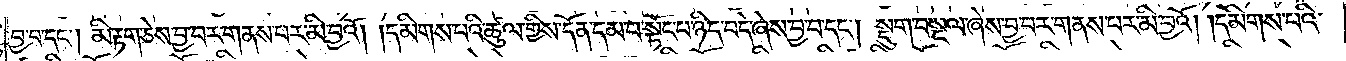བྱ་བ་དང༌། མི་རྟག་ཅེས་བྱ་བར་གནས་པར་མི་བྱའོ། །དམིགས་པའི་ཚུལ་གྱིས་དོན་དམ་པ་སྟོང་པ་ཉིད་བདེ་ཞེས་བྱ་བ་དང༌། སྡུག་བསྔལ་ཞེས་བྱ་བར་གནས་པར་མི་བྱའོ། །དམིགས་པའི་
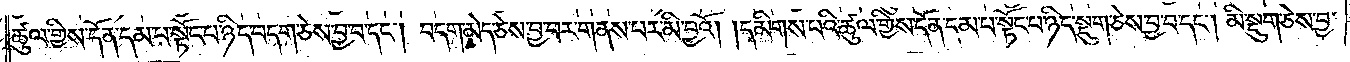ཚུལ་གྱིས་དོན་དམ་པ་སྟོང་པ་ཉིད་བདག་ཅེས་བྱ་བ་དང༌། བདག་མེད་ཅེས་བྱ་བར་གནས་པར་མི་བྱའོ། །དམིགས་པའི་ཚུལ་གྱིས་དོན་དམ་པ་སྟོང་པ་ཉིད་སྡུག་ཅེས་བྱ་བ་དང༌། མི་སྡུག་ཅེས་བྱ་
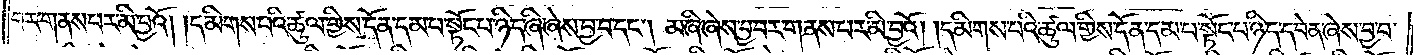བར་གནས་པར་མི་བྱའོ། །དམིགས་པའི་ཚུལ་གྱིས་དོན་དམ་པ་སྟོང་པ་ཉིད་ཞི་ཞེས་བྱ་བ་དང༌། མ་ཞི་ཞེས་བྱ་བར་གནས་པར་མི་བྱའོ། །དམིགས་པའི་ཚུལ་གྱིས་དོན་དམ་པ་སྟོང་པ་ཉིད་དབེན་ཞེས་བྱ་བ་
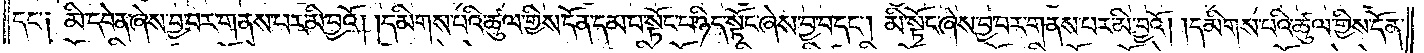དང༌། མི་དབེན་ཞེས་བྱ་བར་གནས་པར་མི་བྱའོ། །དམིགས་པའི་ཚུལ་གྱིས་དོན་དམ་པ་སྟོང་པ་ཉིད་སྟོང་ཞེས་བྱ་བ་དང༌། མི་སྟོང་ཞེས་བྱ་བར་གནས་པར་མི་བྱའོ། །དམིགས་པའི་ཚུལ་གྱིས་དོན་
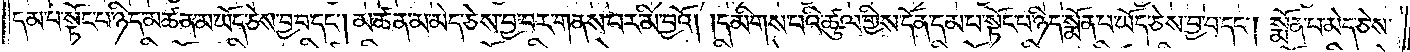དམ་པ་སྟོང་པ་ཉིད་མཚན་མ་ཡོད་ཅེས་བྱ་བ་དང༌། མཚན་མ་མེད་ཅེས་བྱ་བར་གནས་པར་མི་བྱའོ། །དམིགས་པའི་ཚུལ་གྱིས་དོན་དམ་པ་སྟོང་པ་ཉིད་སྨོན་པ་ཡོད་ཅེས་བྱ་བ་དང༌། སྨོན་པ་མེད་ཅེས་
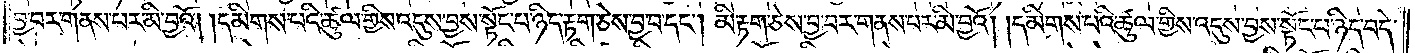བྱ་བར་གནས་པར་མི་བྱའོ། །དམིགས་པའི་ཚུལ་གྱིས་འདུས་བྱས་སྟོང་པ་ཉིད་རྟག་ཅེས་བྱ་བ་དང༌། མི་རྟག་ཅེས་བྱ་བར་གནས་པར་མི་བྱའོ། །དམིགས་པའི་ཚུལ་གྱིས་འདུས་བྱས་སྟོང་པ་ཉིད་བདེ་
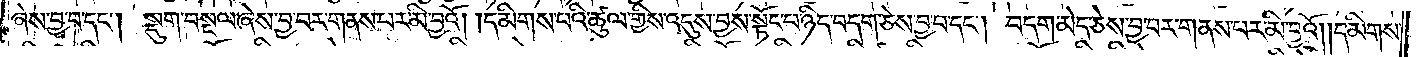ཞེས་བྱ་བ་དང༌། སྡུག་བསྔལ་ཞེས་བྱ་བར་གནས་པར་མི་བྱའོ། །དམིགས་པའི་ཚུལ་གྱིས་འདུས་བྱས་སྟོང་པ་ཉིད་བདག་ཅེས་བྱ་བ་དང༌། བདག་མེད་ཅེས་བྱ་བར་གནས་པར་མི་བྱའོ། །དམིགས་
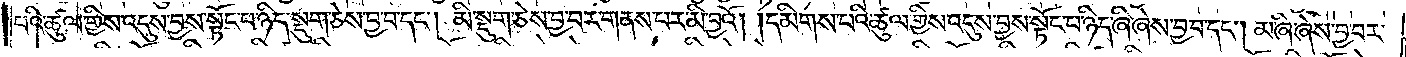པའི་ཚུལ་གྱིས་འདུས་བྱས་སྟོང་པ་ཉིད་སྡུག་ཅེས་བྱ་བ་དང༌། མི་སྡུག་ཅེས་བྱ་བར་གནས་པར་མི་བྱའོ། །དམིགས་པའི་ཚུལ་གྱིས་འདུས་བྱས་སྟོང་པ་ཉིད་ཞི་ཞེས་བྱ་བ་དང༌། མ་ཞི་ཞེས་བྱ་བར་
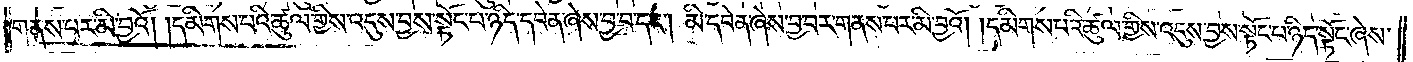གནས་པར་མི་བྱའོ། །དམིགས་པའི་ཚུལ་གྱིས་འདུས་བྱས་སྟོང་པ་ཉིད་དབེན་ཞེས་བྱ་བ་དང༌། མི་དབེན་ཞེས་བྱ་བར་གནས་པར་མི་བྱའོ། །དམིགས་པའི་ཚུལ་གྱིས་འདུས་བྱས་སྟོང་པ་ཉིད་སྟོང་ཞེས་
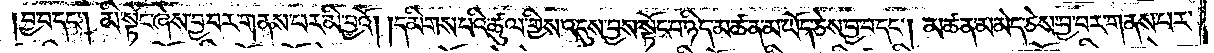བྱ་བ་དང༌། མི་སྟོང་ཞེས་བྱ་བར་གནས་པར་མི་བྱའོ། །དམིགས་པའི་ཚུལ་གྱིས་འདུས་བྱས་སྟོང་པ་ཉིད་མཚན་མ་ཡོད་ཅེས་བྱ་བ་དང༌། མཚན་མ་མེད་ཅེས་བྱ་བར་གནས་པར་
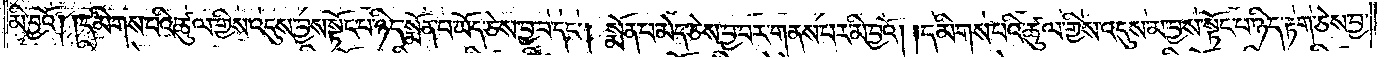མི་བྱའོ། །དམིགས་པའི་ཚུལ་གྱིས་འདུས་བྱས་སྟོང་པ་ཉིད་སྨོན་པ་ཡོད་ཅེས་བྱ་བ་དང༌། སྨོན་པ་མེད་ཅེས་བྱ་བར་གནས་པར་མི་བྱའོ། །དམིགས་པའི་ཚུལ་གྱིས་འདུས་མ་བྱས་སྟོང་པ་ཉིད་རྟག་ཅེས་བྱ་
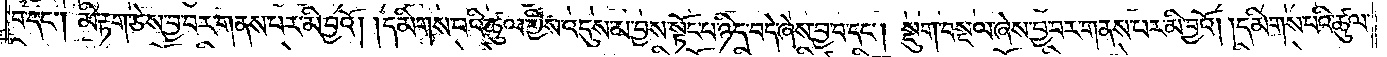བ་དང༌། མི་རྟག་ཅེས་བྱ་བར་གནས་པར་མི་བྱའོ། །དམིགས་པའི་ཚུལ་གྱིས་འདུས་མ་བྱས་སྟོང་པ་ཉིད་བདེ་ཞེས་བྱ་བ་དང༌། སྡུག་བསྔལ་ཞེས་བྱ་བར་གནས་པར་མི་བྱའོ། །དམིགས་པའི་ཚུལ་
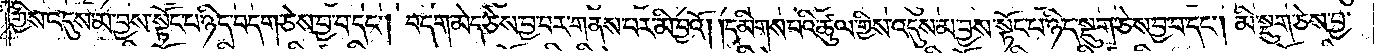གྱིས་འདུས་མ་བྱས་སྟོང་པ་ཉིད་བདག་ཅེས་བྱ་བ་དང༌། བདག་མེད་ཅེས་བྱ་བར་གནས་པར་མི་བྱའོ། །དམིགས་པའི་ཚུལ་གྱིས་འདུས་མ་བྱས་སྟོང་པ་ཉིད་སྡུག་ཅེས་བྱ་བ་དང༌། མི་སྡུག་ཅེས་བྱ་
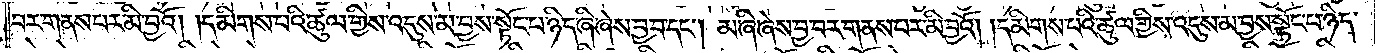བར་གནས་པར་མི་བྱའོ། །དམིགས་པའི་ཚུལ་གྱིས་འདུས་མ་བྱས་སྟོང་པ་ཉིད་ཞི་ཞེས་བྱ་བ་དང༌། མ་ཞི་ཞེས་བྱ་བར་གནས་པར་མི་བྱའོ། །དམིགས་པའི་ཚུལ་གྱིས་འདུས་མ་བྱས་སྟོང་པ་ཉིད་
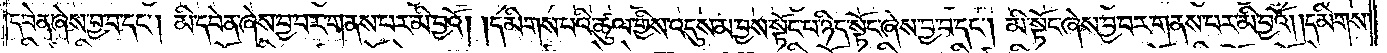དབེན་ཞེས་བྱ་བ་དང༌། མི་དབེན་ཞེས་བྱ་བར་གནས་པར་མི་བྱའོ། །དམིགས་པའི་ཚུལ་གྱིས་འདུས་མ་བྱས་སྟོང་པ་ཉིད་སྟོང་ཞེས་བྱ་བ་དང༌། མི་སྟོང་ཞེས་བྱ་བར་གནས་པར་མི་བྱའོ། །དམིགས་
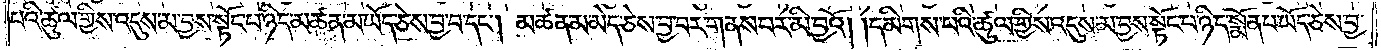པའི་ཚུལ་གྱིས་འདུས་མ་བྱས་སྟོང་པ་ཉིད་མཚན་མ་ཡོད་ཅེས་བྱ་བ་དང༌། མཚན་མ་མེད་ཅེས་བྱ་བར་གནས་པར་མི་བྱའོ། །དམིགས་པའི་ཚུལ་གྱིས་འདུས་མ་བྱས་སྟོང་པ་ཉིད་སྨོན་པ་ཡོད་ཅེས་བྱ་
